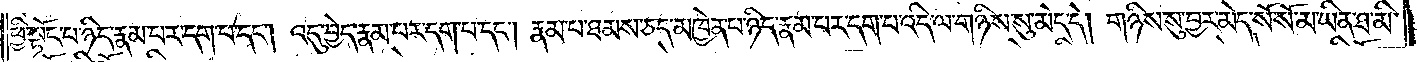ཕྱི་སྟོང་པ་ཉིད་རྣམ་པར་དག་པ་དང༌། འདུ་བྱེད་རྣམ་པར་དག་པ་དང༌། རྣམ་པ་ཐམས་ཅད་མཁྱེན་པ་ཉིད་རྣམ་པར་དག་པ་འདི་ལ་གཉིས་སུ་མེད་དེ། གཉིས་སུ་བྱར་མེད་སོ་སོ་མ་ཡིན་ཐ་མི་
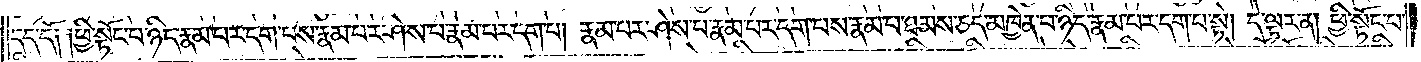དད་དོ༑ ༑ཕྱི་སྟོང་པ་ཉིད་རྣམ་པར་དག་པས་རྣམ་པར་ཤེས་པ་རྣམ་པར་དག་པ། རྣམ་པར་ཤེས་པ་རྣམ་པར་དག་པས་རྣམ་པ་ཐམས་ཅད་མཁྱེན་པ་ཉིད་རྣམ་པར་དག་པ་སྟེ། དེ་ལྟར་ན། ཕྱི་སྟོང་པ་
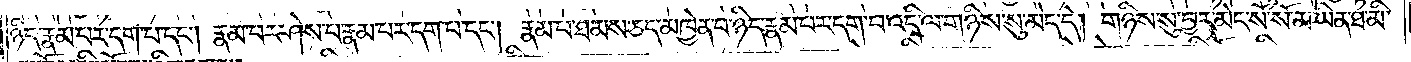ཉིད་རྣམ་པར་དག་པ་དང༌། རྣམ་པར་ཤེས་པ་རྣམ་པར་དག་པ་དང༌། རྣམ་པ་ཐམས་ཅད་མཁྱེན་པ་ཉིད་རྣམ་པར་དག་པ་འདི་ལ་གཉིས་སུ་མེད་དེ། གཉིས་སུ་བྱར་མེད་སོ་སོ་མ་ཡིན་ཐ་མི་
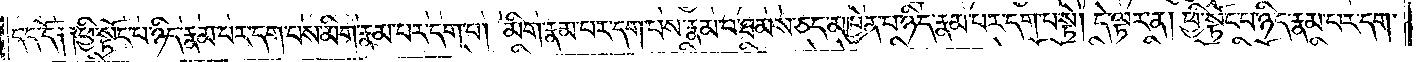དད་དོ། །ཕྱི་སྟོང་པ་ཉིད་རྣམ་པར་དག་པས་མིག་རྣམ་པར་དག་པ། མིག་རྣམ་པར་དག་པས་རྣམ་པ་ཐམས་ཅད་མཁྱེན་པ་ཉིད་རྣམ་པར་དག་པ་སྟེ། དེ་ལྟར་ན། ཕྱི་སྟོང་པ་ཉིད་རྣམ་པར་དག་
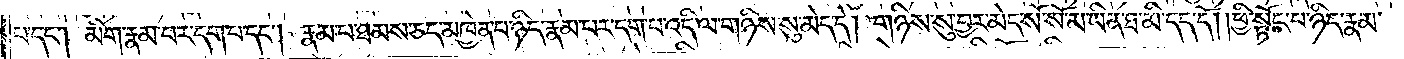པ་དང༌། མིག་རྣམ་པར་དག་པ་དང༌། རྣམ་པ་ཐམས་ཅད་མཁྱེན་པ་ཉིད་རྣམ་པར་དག་པ་འདི་ལ་གཉིས་སུ་མེད་དེ། གཉིས་སུ་བྱར་མེད་སོ་སོ་མ་ཡིན་ཐ་མི་དད་དོ། །ཕྱི་སྟོང་པ་ཉིད་རྣམ་
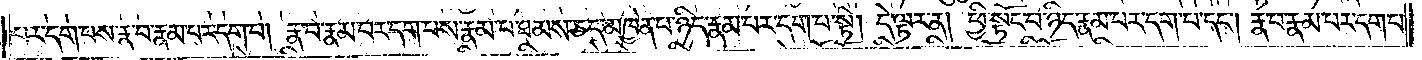པར་དག་པས་རྣ་བ་རྣམ་པར་དག་པ། རྣ་བ་རྣམ་པར་དག་པས་རྣམ་པ་ཐམས་ཅད་མཁྱེན་པ་ཉིད་རྣམ་པར་དག་པ་སྟེ། དེ་ལྟར་ན། ཕྱི་སྟོང་པ་ཉིད་རྣམ་པར་དག་པ་དང༌། རྣ་བ་རྣམ་པར་དག་པ་
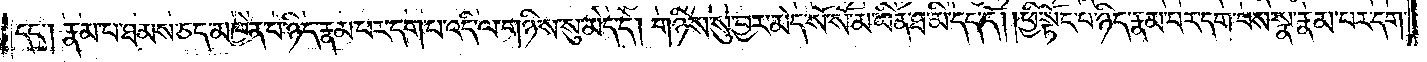དང༌། རྣམ་པ་ཐམས་ཅད་མཁྱེན་པ་ཉིད་རྣམ་པར་དག་པ་འདི་ལ་གཉིས་སུ་མེད་དེ། གཉིས་སུ་བྱར་མེད་སོ་སོ་མ་ཡིན་ཐ་མི་དད་དོ། །ཕྱི་སྟོང་པ་ཉིད་རྣམ་པར་དག་པས་སྣ་རྣམ་པར་དག་
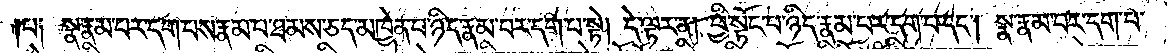པ༑ སྣ་རྣམ་པར་དག་པས་རྣམ་པ་ཐམས་ཅད་མཁྱེན་པ་ཉིད་རྣམ་པར་དག་པ་སྟེ། དེ་ལྟར་ན། ཕྱི་སྟོང་པ་ཉིད་རྣམ་པར་དག་པ་དང༌། སྣ་རྣམ་པར་དག་པ་
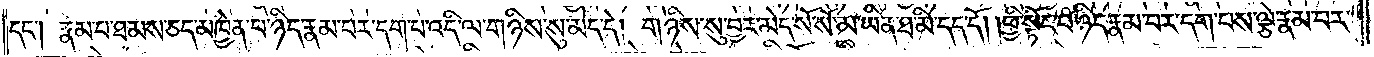དང༌། རྣམ་པ་ཐམས་ཅད་མཁྱེན་པ་ཉིད་རྣམ་པར་དག་པ་འདི་ལ་གཉིས་སུ་མེད་དེ། གཉིས་སུ་བྱར་མེད་སོ་སོ་མ་ཡིན་ཐ་མི་དད་དོ། ། ཕྱི་སྟོང་པ་ཉིད་རྣམ་པར་དག་པས་ལྕེ་རྣམ་པར་
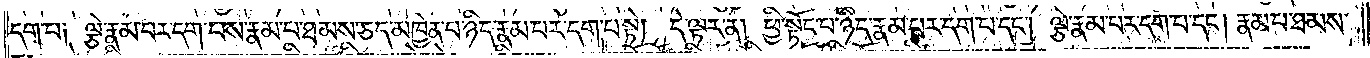དག་པ༑ ལྕེ་རྣམ་པར་དག་པས་རྣམ་པ་ཐམས་ཅད་མཁྱེན་པ་ཉིད་རྣམ་པར་དག་པ་སྟེ། དེ་ལྟར་ན། ཕྱི་སྟོང་པ་ཉིད་རྣམ་པར་དག་པ་དང་༑ ལྕེ་རྣམ་པར་དག་པ་དང༌། རྣམ་པ་ཐམས་
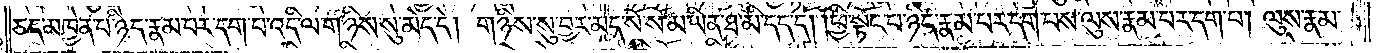ཅད་མཁྱེན་པ་ཉིད་རྣམ་པར་དག་པ་འདི་ལ་གཉིས་སུ་མེད་དེ། གཉིས་སུ་བྱར་མེད་སོ་སོ་མ་ཡིན་ཐ་མི་དད་དོ། །ཕྱི་སྟོང་པ་ཉིད་རྣམ་པར་དག་པས་ལུས་རྣམ་པར་དག་པ། ལུས་རྣམ་
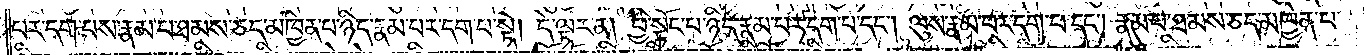པར་དག་པས་རྣམ་པ་ཐམས་ཅད་མཁྱེན་པ་ཉིད་རྣམ་པར་དག་པ་སྟེ། དེ་ལྟར་ན། ཕྱི་སྟོང་པ་ཉིད་རྣམ་པར་དག་པ་དང༌། ལུས་རྣམ་པར་དག་པ་དང༌། རྣམ་པ་ཐམས་ཅད་མཁྱེན་པ་
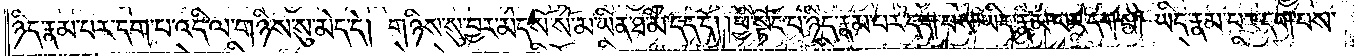ཉིད་རྣམ་པར་དག་པ་འདི་ལ་གཉིས་སུ་མེད་དེ། གཉིས་སུ་བྱར་མེད་སོ་སོ་མ་ཡིན་ཐ་མི་དད་དོ། །ཕྱི་སྟོང་པ་ཉིད་རྣམ་པར་དག་པས་ཡིད་རྣམ་པར་དག་པ། ཡིད་རྣམ་པར་དག་པས་
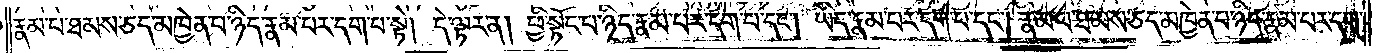རྣམ་པ་ཐམས་ཅད་མཁྱེན་པ་ཉིད་རྣམ་པར་དག་པ་སྟེ། དེ་ལྟར་ན། ཕྱི་སྟོང་པ་ཉིད་རྣམ་པར་དག་པ་དང༌། ཡིད་རྣམ་པར་དག་པ་དང༌། རྣམ་པ་ཐམས་ཅད་མཁྱེན་པ་ཉིད་རྣམ་པར་དག་
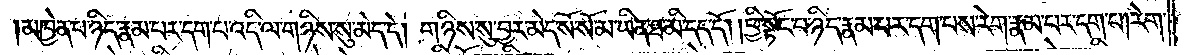མཁྱེན་པ་ཉིད་རྣམ་པར་དག་པ་འདི་ལ་གཉིས་སུ་མེད་དེ། གཉིས་སུ་བྱར་མེད་སོ་སོ་མ་ཡིན་ཐ་མི་དད་དོ། །ཕྱི་སྟོང་པ་ཉིད་རྣམ་པར་དག་པས་རེག་རྣམ་པར་དག་པ། རེག་
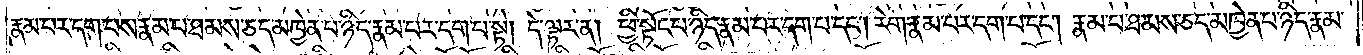རྣམ་པར་དག་པས་རྣམ་པ་ཐམས་ཅད་མཁྱེན་པ་ཉིད་རྣམ་པར་དག་པ་སྟེ། དེ་ལྟར་ན། ཕྱི་སྟོང་པ་ཉིད་རྣམ་པར་དག་པ་དང༌། རེག་རྣམ་པར་དག་པ་དང༌། རྣམ་པ་ཐམས་ཅད་མཁྱེན་པ་ཉིད་རྣམ་
